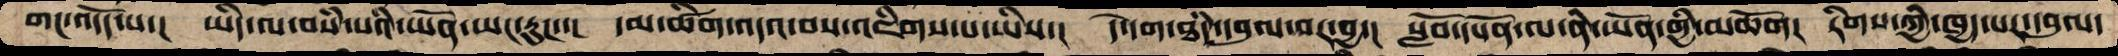གང་འདོད་པ་།  ཡིད་ལ་བསཾ་པའི་ཡོན་ཡང་རུང་་།  དམ་ཚིག་འདའ་བས་འཇིགས་པ་ཡིས་།  དེ་དག་ཐཾད་དབུལ་བར་བྱ་།  སློབ་དཔོན་ལ་ནི་ཡོན་གྱི་མཆོག།  རིགས་ཀྱི་ཁྱད་པར་དབུལ་
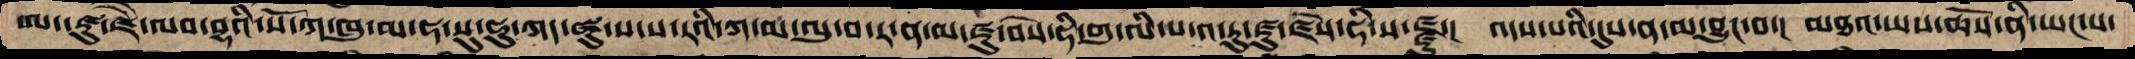ཨད་ཛུ་ཛཻ་ལབ་བྷའི་སོ་ཀ་ཁུ་མ་ཧ་སུ་ཧུ་ཀད་ཛུ་ས་ས་རའི་ཀ་མ་ལུ་བ་ར་ན་མ་ཛུ་བསེ་ཧི་གུ་ལི་ས་འ་རུ་ཛུ་ཛོས་ཧི་ས་ཛྫུ་།  འདས་པའི་དུས་ན་མ་བྱུང་བ་།  མཐའ་ཡས་ཆོས་ནི་ཡང་པ་
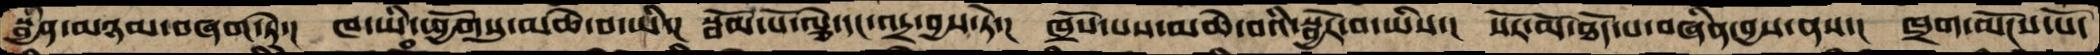སྦྱིན་མཉམ་བཞག་ཏེ་།  ཁ་ཡི་ཕྱོགསུ་མཆེ་བ་ཡི་།  སྦོམ་པོ་ལྕེ་དང་འདྲ་བྱས་ཏེ་།  ཁྲོས་པས་མཆེ་བའི་སྦྱོར་བ་ཡིས་།  སོར་མོ་ཐོད་པ་བཞིན་བྱས་ནས་།  ཁྲག་ལོངས་པོ་
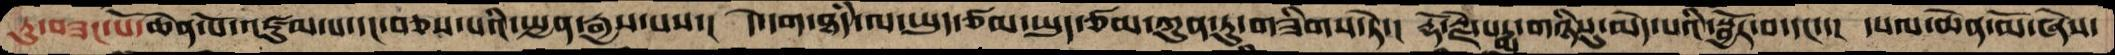ཏུ་བཟང་པོ་ཆེན་པོ་འཛུམ་པ་དང་བཅས་པའི་སྤྱན་རྒྱས་པས་།  དེ་དག་ཐཾད་ལ་ཡུད་ཙམ་ཡུད་ཙམ་ཀུན་ཏུ་གཟིགས་ཏེ་།  རྡོ་རྗེ་པདྨ་གཉིསུ་མེད་པའི་སྦྱོར་བ་དང་་།  དཔལ་ཆེན་མོ་ཞེས་
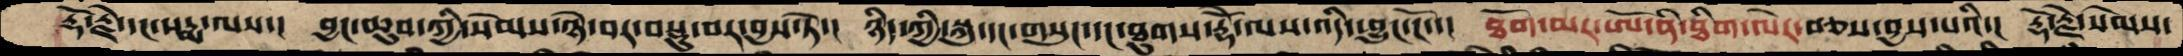རྡོ་རྗེ་དང་པདྨ་ལས་།  བྱང་ཆུབ་ཀྱི་སེམས་ཉེ་བར་བསྡུ་བར་བྱས་ཏེ་།  ཉིད་ཀྱི་སྐུ་དང་གསུང་དང་ཐུགས་རྡོེ་ལས་འདི་ཕྱུང་ངོ་་།  ཐོག་མར་ཨོ་ནི་ཐིག་ལེར་བཅས་བྱས་པའི་།  རྡོ་རྗེ་སེམས་
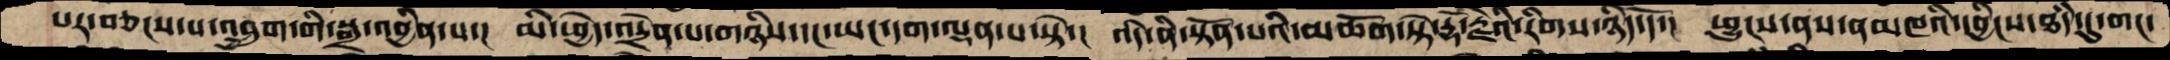པར་བཅངས་པ་འབྲུག་གི་སྒྲ་འབྱིན་པ་།  མི་ཕྱེད་འདྲེན་པ་གཉིས་དང་ཡང་དག་ལྡན་པ་སྟེ་།  འདི་ནི་སྟོན་པའི་མཆོག་སྟེ་རྡོ་རྗེའི་རིགས་ཉིད་དོ་།  ཕྱུངས་ནས་ནམཁའི་དབྱིངས་ཐཾད་དུ་གང་
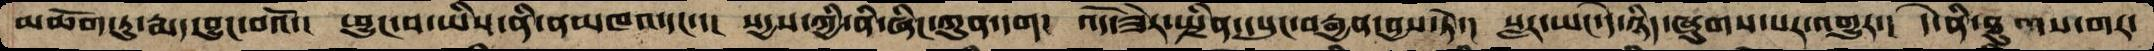མཆོག་ཏུ་རྨད་བྱུང་བའོ་།  ཕྱུང་བ་ཡིས་ནི་ནམཁའ་དང་་།  སདྱས་ཀྱི་ནི་ཞིང་ཀུན་དག།  འོད་ཟེར་སྤྲིན་དཔུང་བརྒྱན་བྱས་ཏེ་།  སླར་ཡང་དེ་ཉིད་ཞུགས་པར་འགྱུར་།  དེ་ནི་ཐུགས་གར་
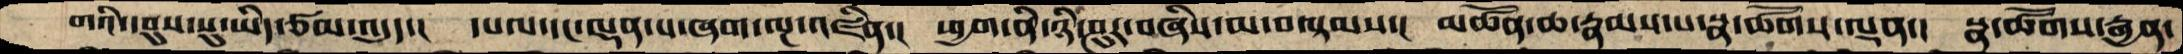གའི་དབུས་སུ་ཡིད་ཙམ་འདུད་།  དཔལ་དང་ལྡན་པ་ཞག་ལྔ་འཛིན་། ཕྱག་ནི་ཉི་ཤུར་བཞིས་མ་བལྟམས་།  མཚོན་ཆ་རྣམས་པ་སྣ་ཚོགས་ལྡན་།  སྣ་ཚོགས་རྒྱན་
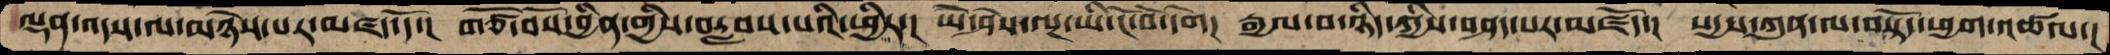ལྡན་འདས་ལ་མཉེས་པར་མཛད་དོ་།  གཙོ་བོས་བྱིན་གྱིས་བརླབས་པའི་ཕྱིར་།  ཡེ་ཤེས་ལྔ་ཡི་ངོ་བོ་དགེ།  རྒྱལ་བ་ཉིད་ཀྱིས་བཤད་པར་མཛོད་།  སདྱས་ཀུན་ལ་བསྟོད་ཕྱག་འཚལ་།
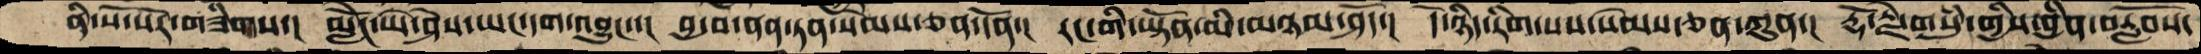ནི་སོ་སོར་གཟིགས་། མླེངོ་ཡེ་ཤེས་ཡང་དག་འབྱུང་་།  བྱ་བ་ནན་ཏན་སེམས་ཅན་དོན་།  རང་གི་་ཡྟོན་མི་མཉམ་ཤདོ་།  དེ་ཉིད་རིག་པས་སེམས་ཅན་ཀུན་།  རྡོ་རྗེ་གསུཾ་གྱིས་བྱིན་བརློབས་
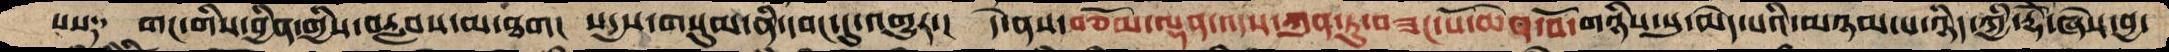པས༑   གང་གིས་བྱིན་གྱིས་བརླབས་མ་ཐག།  སདྱས་གསུམ་ནི་དབང་དུ་འགྱུར་།  དེ་ནས་བཅོམ་ལྡན་འདས་ཀུན་ཏུ་བཟང་པོ་ཆེན་པོ་གཉིས་སུ་མེད་པའི་མཉམ་པ་ཉིད་ཀྱི་རྡོེ་ཞེས་བྱ་
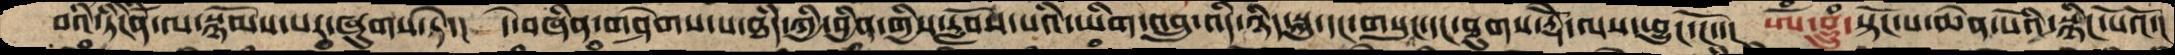བའི་ཏིངེིན་ལ་སྙོམས་པར་ཞུགས་ཏེ་།  དེ་བཞིན་གཤེགས་པ་ཐཾད་ཀྱི་བྱིན་གྱིས་རློབས་པའི་ཡིག་འབྲུ་འདི་ཉིད་སྐུ་དང་གསུང་དང་ཐུགས་རྡོེ་ལས་ཕྱུང་ངོ་་།  ཨོཾ་བྷྲུཾ་སྟོང་པ་ཆེན་པོའི་སྙིང་པོའོ་།
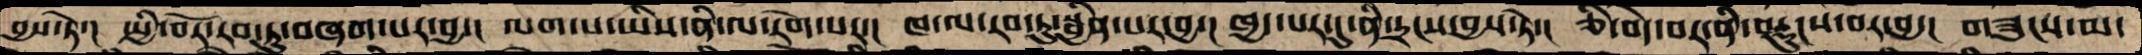བྱས་ཏེ་།  སྤྱི་བོར་རབ་ཏུ་བཞག་པར་བྱ་།  ལག་པ་ཡིས་ནི་ལ་རེག་པར་།  ཁ་ལ་རབ་ཏུ་སྦྱིན་པར་བྱ་།  ཁྱད་པར་དུ་ནི་དྲངས་བྱས་ཏེ་།  ཅི་བདེ་བར་ནི་བརྡུངས་བར་བྱ་།  གཟུངས་མ་
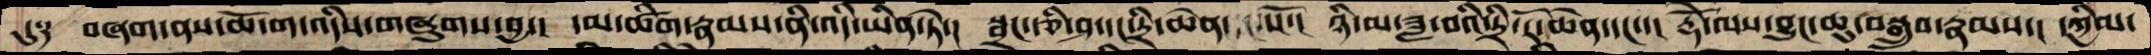དུ༑  བཞག་ནས་ཆོ་ག་འདིས་གཞུགས་བྱ་།  དམ་ཚིག་རྣམས་ནི་འདི་ཡིན་ཏེ་།  སྦྲང་རྩི་ཤ་དང་དྲི་ཆེན་ པོ་།  ཉི་མ་ཟླ་བའི་དྲི་རོ་ཆེན་དང་་།  རྡོེ་ལས་བྱུང་ཆུ་བསྒྲུབ་རྣམས་།  དཀྱིལ་
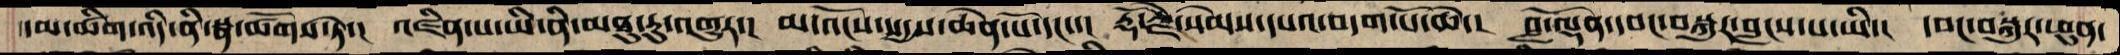དམ་ཚིག་འདི་ནི་སྣ་ཚོགས་ཏེ་།  འཛིན་པ་ཡི་ནི་མཐུ་རུ་འགྱུར་།  མ་འོངས་སདྱས་ཆེན་པོ་དང་་།  རྡོ་རྗེ་སེམས་དཔའ་བདག་པོ་ཆེ་།  བློ་ལྡན་དབང་བསྐུར་བླངས་པ་ཡི་།  དབང་བསྐུར་ཕུན་
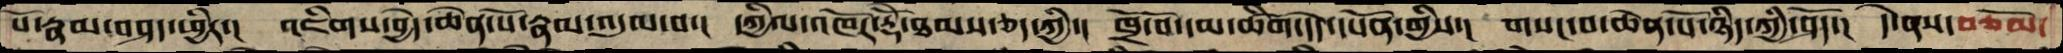པོ་རྣམ་བཤད་ཕྱིར་།  འཇིག་བྱེད་ཆེན་པོ་རྣམ་འདུལ་བ་།  དཀྱིལ་འཁོར་རྡོེ་ཐམས་ཅད་ཀྱི་།  ཁྲོ་བོ་དམ་ཚིག་དེད་དཔོན་གྱིས་།  གསང་བ་ཆེན་པོ་ཉིད་ཀྱི་ཤོད་།  དེ་ནས་བཅོམ་
